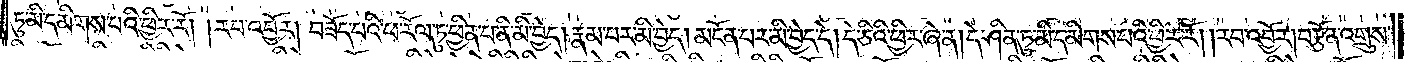ཏུ་མི་དམིགས་པའི་ཕྱིར་རོ། །རབ་འབྱོར། བཟོད་པའི་ཕ་རོལ་ཏུ་ཕྱིན་པ་ནི་མི་བྱེད། རྣམ་པར་མི་བྱེད། མངོན་པར་མི་བྱེད་དེ། དེ་ཅིའི་ཕྱིར་ཞེ་ན། དེ་ཤིན་ཏུ་མི་དམིགས་པའི་ཕྱིར་རོ། །རབ་འབྱོར། བརྩོན་འགྲུས་
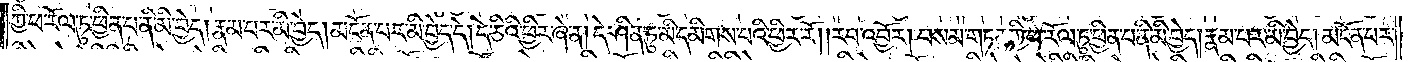ཀྱི་ཕ་རོལ་ཏུ་ཕྱིན་པ་ནི་མི་བྱེད། རྣམ་པར་མི་བྱེད། མངོན་པར་མི་བྱེད་དེ། དེ་ཅིའི་ཕྱིར་ཞེ་ན། དེ་ཤིན་ཏུ་མི་དམིགས་པའི་ཕྱིར་རོ། །རབ་འབྱོར། བསམ་གཏན་གྱི་ཕ་རོལ་ཏུ་ཕྱིན་པ་ནི་མི་བྱེད། རྣམ་པར་མི་བྱེད། མངོན་པར་
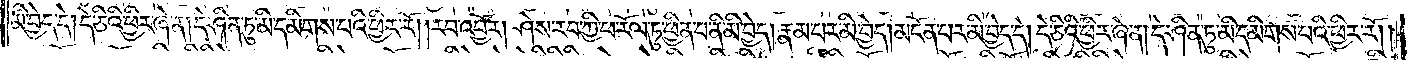མི་བྱེད་དེ། དེ་ཅིའི་ཕྱིར་ཞེ་ན། དེ་ཤིན་ཏུ་མི་དམིགས་པའི་ཕྱིར་རོ། །རབ་འབྱོར། ཤེས་རབ་ཀྱི་ཕ་རོལ་ཏུ་ཕྱིན་པ་ནི་མི་བྱེད། རྣམ་པར་མི་བྱེད། མངོན་པར་མི་བྱེད་དེ། དེ་ཅིའི་ཕྱིར་ཞེ་ན། དེ་ཤིན་ཏུ་མི་དམིགས་པའི་ཕྱིར་རོ། །
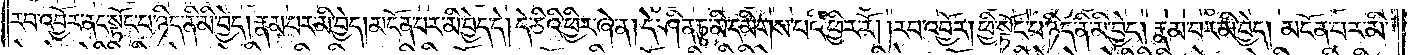རབ་འབྱོར་ནང་སྟོང་པ་ཉིད་ནི་མི་བྱེད། རྣམ་པར་མི་བྱེད། མངོན་པར་མི་བྱེད་དེ། དེ་ཅིའི་ཕྱིར་ཞེ་ན། དེ་ཤིན་ཏུ་མི་དམིགས་པའི་ཕྱིར་རོ། །རབ་འབྱོར། ཕྱི་སྟོང་པ་ཉིད་ནི་མི་བྱེད། རྣམ་པར་མི་བྱེད། མངོན་པར་མི་
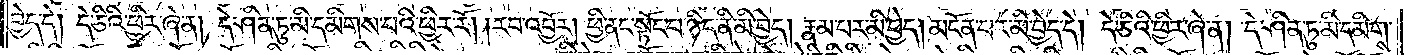བྱེད་དེ། དེ་ཅིའི་ཕྱིར་ཞེ་ན། དེ་ཤིན་ཏུ་མི་དམིགས་པའི་ཕྱིར་རོ། །རབ་འབྱོར། ཕྱི་ནང་སྟོང་པ་ཉིད་ནི་མི་བྱེད། རྣམ་པར་མི་བྱེད། མངོན་པར་མི་བྱེད་དེ། དེ་ཅིའི་ཕྱིར་ཞེ་ན། དེ་ཤིན་ཏུ་མི་དམིགས་
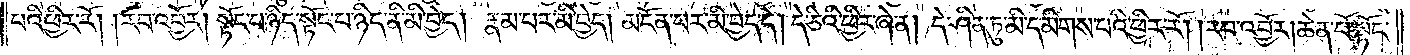པའི་ཕྱིར་རོ། །རབ་འབྱོར། སྟོང་པ་ཉིད་སྟོང་པ་ཉིད་ནི་མི་བྱེད། རྣམ་པར་མི་བྱེད། མངོན་པར་མི་བྱེད་དེ། དེ་ཅིའི་ཕྱིར་ཞེ་ན། དེ་ཤིན་ཏུ་མི་དམིགས་པའི་ཕྱིར་རོ། །རབ་འབྱོར། ཆེན་པོ་སྟོང་
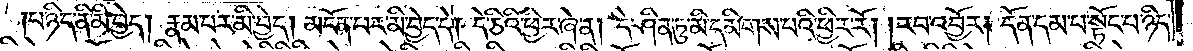པ་ཉིད་ནི་མི་བྱེད། རྣམ་པར་མི་བྱེད། མངོན་པར་མི་བྱེད་དེ། དེ་ཅིའི་ཕྱིར་ཞེ་ན། དེ་ཤིན་ཏུ་མི་དམིགས་པའི་ཕྱིར་རོ། །རབ་འབྱོར། དོན་དམ་པ་སྟོང་པ་ཉིད་
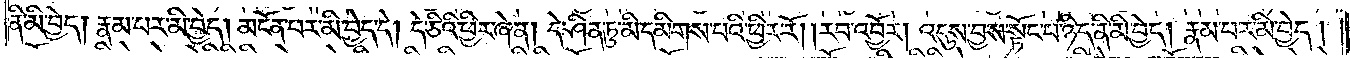ནི་མི་བྱེད། རྣམ་པར་མི་བྱེད། མངོན་པར་མི་བྱེད་དེ། དེ་ཅིའི་ཕྱིར་ཞེ་ན། དེ་ཤིན་ཏུ་མི་དམིགས་པའི་ཕྱིར་རོ། །རབ་འབྱོར། འདུས་བྱས་སྟོང་པ་ཉིད་ནི་མི་བྱེད། རྣམ་པར་མི་བྱེད།
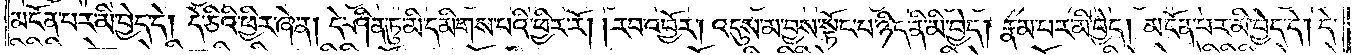མངོན་པར་མི་བྱེད་དེ། དེ་ཅིའི་ཕྱིར་ཞེ་ན། དེ་ཤིན་ཏུ་མི་དམིགས་པའི་ཕྱིར་རོ། །རབ་འབྱོར། འདུས་མ་བྱས་སྟོང་པ་ཉིད་ནི་མི་བྱེད། རྣམ་པར་མི་བྱེད། མངོན་པར་མི་བྱེད་དེ། དེ་
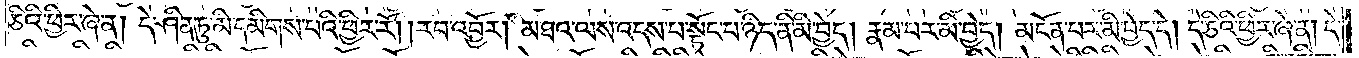ཅིའི་ཕྱིར་ཞེ་ན། དེ་ཤིན་ཏུ་མི་དམིགས་པའི་ཕྱིར་རོ། །རབ་འབྱོར། མཐའ་ལས་འདས་པ་སྟོང་པ་ཉིད་ནི་མི་བྱེད། རྣམ་པར་མི་བྱེད། མངོན་པར་མི་བྱེད་དེ། དེ་ཅིའི་ཕྱིར་ཞེ་ན། དེ་
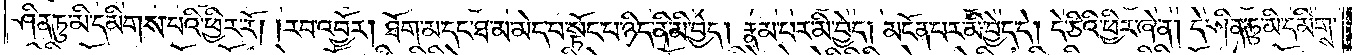ཤིན་ཏུ་མི་དམིགས་པའི་ཕྱིར་རོ། །རབ་འབྱོར། ཐོག་མ་དང་ཐ་མ་མེད་པ་སྟོང་པ་ཉིད་ནི་མི་བྱེད། རྣམ་པར་མི་བྱེད། མངོན་པར་མི་བྱེད་དེ། དེ་ཅིའི་ཕྱིར་ཞེ་ན། དེ་ཤིན་ཏུ་མི་དམིགས་
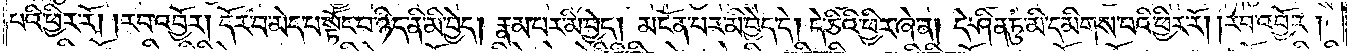པའི་ཕྱིར་རོ། །རབ་འབྱོར། དོར་བ་མེད་པ་སྟོང་པ་ཉིད་ནི་མི་བྱེད། རྣམ་པར་མི་བྱེད། མངོན་པར་མི་བྱེད་དེ། དེ་ཅིའི་ཕྱིར་ཞེ་ན། དེ་ཤིན་ཏུ་མི་དམིགས་པའི་ཕྱིར་རོ། །རབ་འབྱོར།
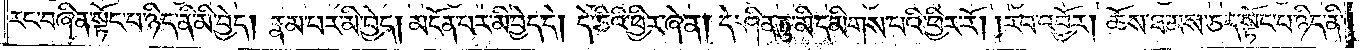རང་བཞིན་སྟོང་པ་ཉིད་ནི་མི་བྱེད། རྣམ་པར་མི་བྱེད་མངོན་པར་མི་བྱེད་དེ། དེ་ཅིའི་ཕྱིར་ཞེ་ན། དེ་ཤིན་ཏུ་མི་དམིགས་པའི་ཕྱིར་རོ། །རབ་འབྱོར། ཆོས་ཐམས་ཅད་སྟོང་ཉིད་ནི་
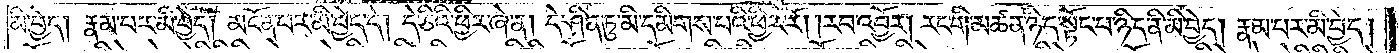མི་བྱེད། རྣམ་པར་མི་བྱེད། མངོན་པར་མི་བྱེད་དེ། དེ་ཅིའི་ཕྱིར་ཞེ་ན། དེ་ཤིན་ཏུ་མི་དམིགས་པའི་ཕྱིར་རོ། །རབ་འབྱོར། རང་གི་མཚན་ཉིད་སྟོང་པ་ཉིད་ནི་མི་བྱེད། རྣམ་པར་མི་བྱེད།
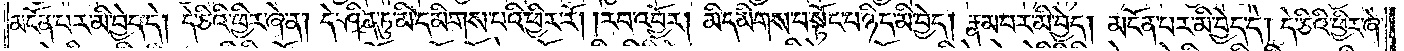མངོན་པར་མི་བྱེད་དེ། དེ་ཅིའི་ཕྱིར་ཞེ་ན། དེ་ཤིན་ཏུ་མི་དམིགས་པའི་ཕྱིར་རོ། །རབ་འབྱོར། མི་དམིགས་པ་སྟོང་པ་ཉིད་ནི་མི་བྱེད། རྣམ་པར་མི་བྱེད། མངོན་པར་མི་བྱེད་དེ། དེ་ཅིའི་ཕྱིར་ཞེ་
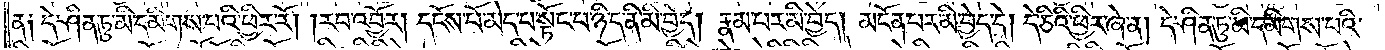ན༑ དེ་ཤིན་ཏུ་མི་དམིགས་པའི་ཕྱིར་རོ། །རབ་འབྱོར། དངོས་པོ་མེད་པ་སྟོང་པ་ཉིད་ནི་མི་བྱེད། རྣམ་པར་མི་བྱེད། མངོན་པར་མི་བྱེད་དེ། དེ་ཅིའི་ཕྱིར་ཞེ་ན། དེ་ཤིན་ཏུ་མི་དམིགས་པའི་
